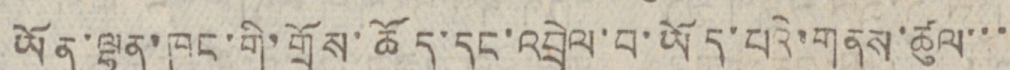ཡོན་ལྷན་ཁང་གི་གྲོས་ཆོད་དང་འབྲེལ་བ་ཡོད་པའི་གནས་ཚུལ་་་་
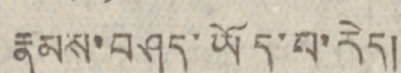རྣམས་བཤད་ཡོད་པ་རེད།
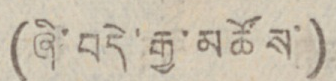(ཞི་བདེ་རྒྱ་མཚོས་)
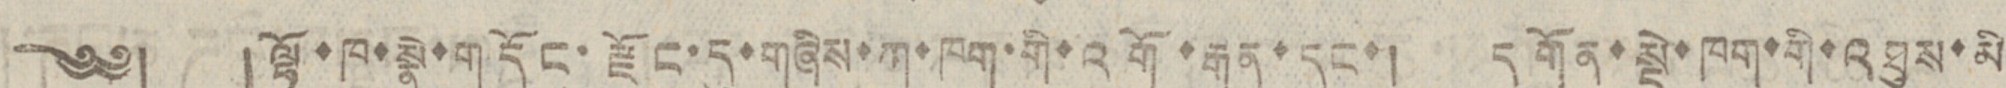༄༅། །ལྷོ་ཁ་སྣེ་གདོང་རྫོང་དུ་གཞིས་ཀ་ཁག་གི་འགོ་རྒན་དང་། དགོན་སྡེ་ཁག་གི་འཐུས་མི
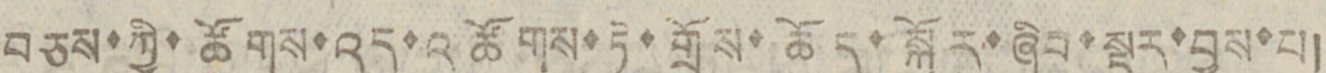བཅས་ཀྱི་ཚོགས་འདུ་འཚོགས་ཏེ་གྲོས་ཆོད་སྐོར་ཞིབ་སྡུར་བྱས་པ།
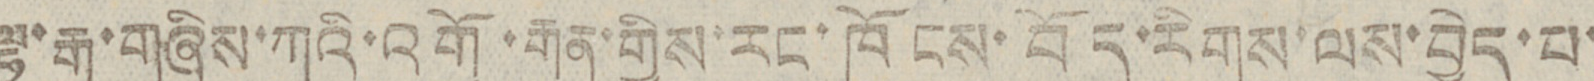ལྷ་རྒྱ་གཞིས་ཀའི་འགོ་རྒན་གྱིས་རང་ཁོངས་བོད་རིགས་ལས་བྱེད་པ་
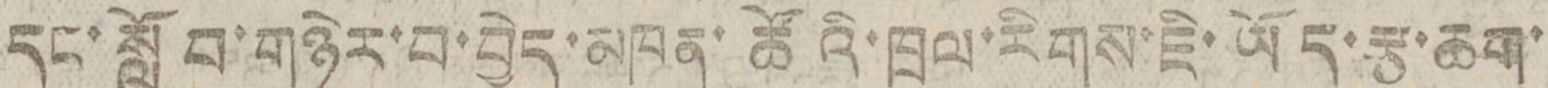དང་སློབ་གཉེར་བ་བྱེད་མཁན་ཚོའི་ཁྲལ་རིགས་ཇི་ཡོད་རྩ་ཆག་
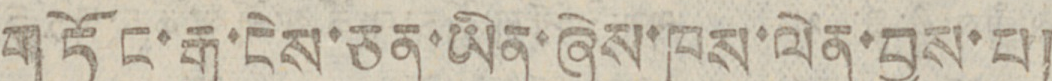གཏོང་རྒྱུ་ངེས་ཅན་ཡིན་ཞེས་ཁས་ལེན་བྱས་པ།
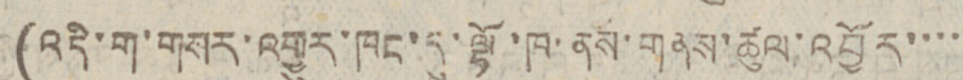(འདི་ག་གསར་འགྱུར་ཁང་དུ་ལྷོ་ཁ་ནས་གནས་ཚུལ་འབྱོར་་་་
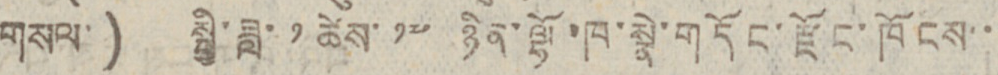གསལ་) སྤྱི་ཟླ་ ༡ ཚེས་ ༡༧ ཉིན་ལྷོ་ཁ་སྣེ་གདོང་རྫོང་ཁོངས་་་
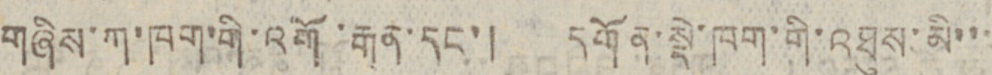གཞིས་ཀ་ཁག་གི་འགོ་རྒན་དང་། དགོན་སྡེ་ཁག་གི་འཐུས་མི་་་་
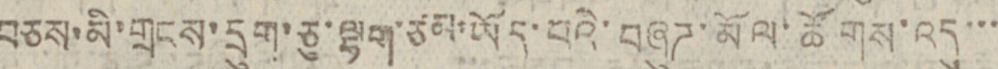བཅས་མི་གྲངས་དྲུག་ཅུ་ལྷག་ཙམ་ཡོད་པའི་བཞུཊ་མོལ་ཚོགས་འདུ་་་
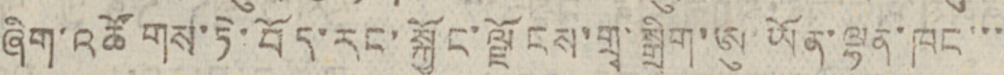ཞིག་འཚོགས་ཏེ་བོད་རང་སྐྱོང་ལྗོངས་གྲྭ་སྒྲིག་ཨུ་ཡོན་ལྷན་ཁང་་་
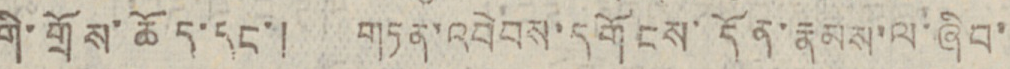གི་གྲོས་ཆོད་དང་། གཏན་འབེབས་དགོངས་དོན་རྣམས་ལ་ཞིབ་
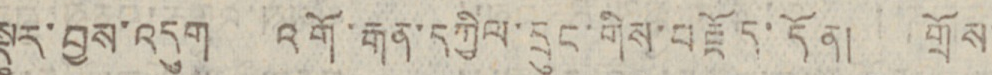སྡུར་བྱས་འདུག འགོ་རྒན་དཀྱིལ་དྲུང་གིས་བརྗོད་དོན། གྲོས་
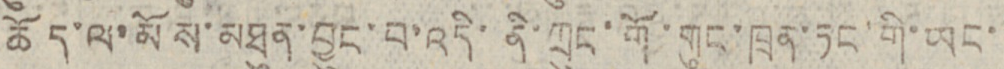ཆོད་ལ་མོས་མཐུན་བྱུང་བ་འདི་ནི་ཀྲུང་གོ་གུང་ཁྲན་ཏང་གི་ཡང་་
